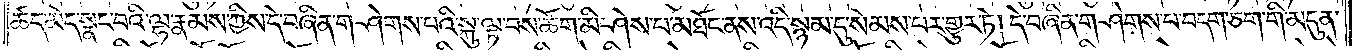ཚད་མེད་སྣང་བའི་ལྷ་རྣམས་ཀྱིས་དེ་བཞིན་གཤེགས་པའི་སྐུ་ལྟ་བས་ཆོག་མི་ཤེས་པ་མཐོང་ནས་འདི་སྙམ་དུ་སེམས་པར་གྱུར་ཏེ། དེ་བཞིན་གཤེགས་པ་བདག་ཅག་གི་མདུན་
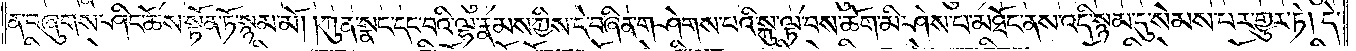ན་བཞུགས་ཤིང་ཆོས་སྟོན་ཏོ་སྙམ་མོ། །ཀུན་སྣང་དང་བའི་ལྷ་རྣམས་ཀྱིས་དེ་བཞིན་གཤེགས་པའི་སྐུ་ལྟ་བས་ཆོག་མི་ཤེས་པ་མཐོང་ནས་འདི་སྙམ་དུ་སེམས་པར་གྱུར་ཏེ། དེ་
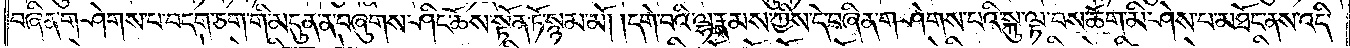བཞིན་གཤེགས་པ་བདག་ཅག་གི་མདུན་ན་བཞུགས་ཤིང་ཆོས་སྟོན་ཏོ་སྙམ་མོ། །དགེ་བའི་ལྷ་རྣམས་ཀྱིས་དེ་བཞིན་གཤེགས་པའི་སྐུ་ལྟ་བས་ཆོག་མི་ཤེས་པ་མཐོང་ནས་འདི་
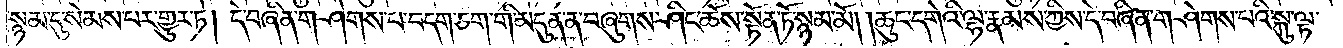སྙམ་དུ་སེམས་པར་གྱུར་ཏེ། དེ་བཞིན་གཤེགས་པ་བདག་ཅག་གི་མདུན་ན་བཞུགས་ཤིང་ཆོས་སྟོན་ཏོ་སྙམ་མོ། །ཆུང་དགེའི་ལྷ་རྣམས་ཀྱིས་དེ་བཞིན་གཤེགས་པའི་སྐུ་ལྟ་
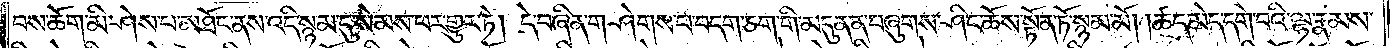བས་ཆོག་མི་ཤེས་པ་མཐོང་ནས་འདི་སྙམ་དུ་སེམས་པར་གྱུར་ཏེ། དེ་བཞིན་གཤེགས་པ་བདག་ཅག་གི་མདུན་ན་བཞུགས་ཤིང་ཆོས་སྟོན་ཏོ་སྙམ་མོ། །ཚད་མེད་དགེ་བའི་ལྷ་རྣམས་
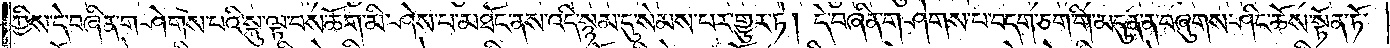ཀྱིས་དེ་བཞིན་གཤེགས་པའི་སྐུ་ལྟ་བས་ཆོག་མི་ཤེས་པ་མཐོང་ནས་འདི་སྙམ་དུ་སེམས་པར་གྱུར་ཏེ། དེ་བཞིན་གཤེགས་པ་བདག་ཅག་གི་མདུན་ན་བཞུགས་ཤིང་ཆོས་སྟོན་ཏོ་
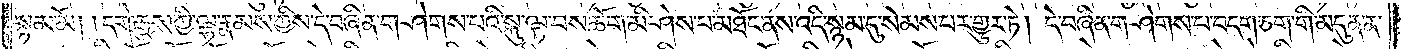སྙམ་མོ། །དགེ་རྒྱས་ཀྱི་ལྷ་རྣམས་ཀྱིས་དེ་བཞིན་གཤེགས་པའི་སྐུ་ལྟ་བས་ཆོག་མི་ཤེས་པ་མཐོང་ནས་འདི་སྙམ་དུ་སེམས་པར་གྱུར་ཏེ། དེ་བཞིན་གཤེགས་པ་བདག་ཅག་གི་མདུན་ན་
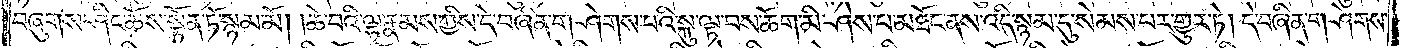བཞུགས་ཤིང་ཆོས་སྟོན་ཏོ་སྙམ་མོ། །ཆེ་བའི་ལྷ་རྣམས་ཀྱིས་དེ་བཞིན་གཤེགས་པའི་སྐུ་ལྟ་བས་ཆོག་མི་ཤེས་པ་མཐོང་ནས་འདི་སྙམ་དུ་སེམས་པར་གྱུར་ཏེ། དེ་བཞིན་གཤེགས་
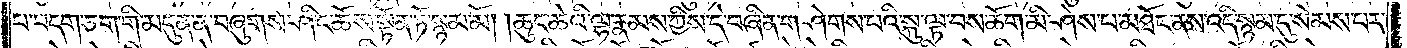པ་བདག་ཅག་གི་མདུན་ན་བཞུགས་ཤིང་ཆོས་སྟོན་ཏོ་སྙམ་མོ། །ཆུང་ཆེའི་ལྷ་རྣམས་ཀྱིས་དེ་བཞིན་གཤེགས་པའི་སྐུ་ལྟ་བས་ཆོག་མི་ཤེས་པ་མཐོང་ནས་འདི་སྙམ་དུ་སེམས་པར་
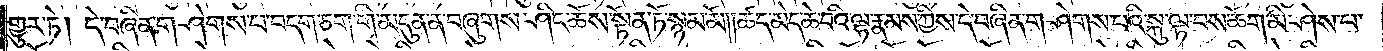གྱུར་ཏེ། དེ་བཞིན་གཤེགས་པ་བདག་ཅག་གི་མདུན་ན་བཞུགས་ཤིང་ཆོས་སྟོན་ཏོ་སྙམ་མོ། །ཚད་མེད་ཆེ་བའི་ལྷ་རྣམས་ཀྱིས་དེ་བཞིན་གཤེགས་པའི་སྐུ་ལྟ་བས་ཆོག་མི་ཤེས་པ་
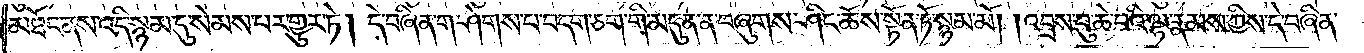མཐོང་ནས་འདི་སྙམ་དུ་སེམས་པར་གྱུར་ཏེ། དེ་བཞིན་གཤེགས་པ་བདག་ཅག་གི་མདུན་ན་བཞུགས་ཤིང་ཆོས་སྟོན་ཏོ་སྙམ་མོ། །འབྲས་བུ་ཆེ་བའི་ལྷ་རྣམས་ཀྱིས་དེ་བཞིན་
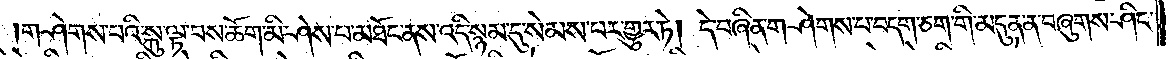གཤེགས་པའི་སྐུ་ལྟ་བས་ཆོག་མི་ཤེས་པ་མཐོང་ནས་འདི་སྙམ་དུ་སེམས་པར་གྱུར་ཏེ། དེ་བཞིན་གཤེགས་པ་བདག་ཅག་གི་མདུན་ན་བཞུགས་ཤིང་
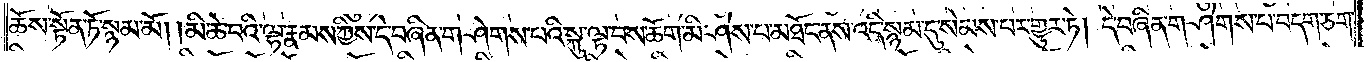ཆོས་སྟོན་ཏོ་སྙམ་མོ། །མི་ཆེ་བའི་ལྷ་རྣམས་ཀྱིས་དེ་བཞིན་གཤེགས་པའི་སྐུ་ལྟ་བས་ཆོག་མི་ཤེས་པ་མཐོང་ནས་འདི་སྙམ་དུ་སེམས་པར་གྱུར་ཏེ། དེ་བཞིན་གཤེགས་པ་བདག་ཅག་
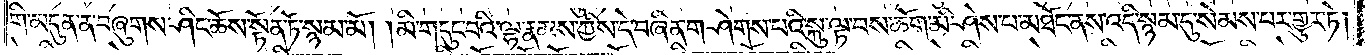གི་མདུན་ན་བཞུགས་ཤིང་ཆོས་སྟོན་ཏོ་སྙམ་མོ། །མི་གདུང་བའི་ལྷ་རྣམས་ཀྱིས་དེ་བཞིན་གཤེགས་པའི་སྐུ་ལྟ་བས་ཆོག་མི་ཤེས་པ་མཐོང་ནས་འདི་སྙམ་དུ་སེམས་པར་གྱུར་ཏེ།
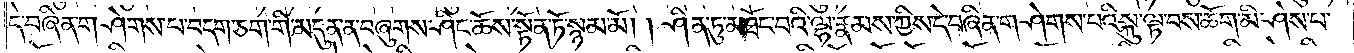དེ་བཞིན་གཤེགས་པ་བདག་ཅག་གི་མདུན་ན་བཞུགས་ཤིང་ཆོས་སྟོན་ཏོ་སྙམ་མོ། །ཤིན་ཏུ་མཐོང་བའི་ལྷ་རྣམས་ཀྱིས་དེ་བཞིན་གཤེགས་པའི་སྐུ་ལྟ་བས་ཆོག་མི་ཤེས་པ་
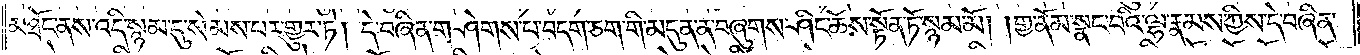མཐོང་ནས་འདི་སྙམ་དུ་སེམས་པར་གྱུར་ཏེ། དེ་བཞིན་གཤེགས་པ་བདག་ཅག་གི་མདུན་ན་བཞུགས་ཤིང་ཆོས་སྟོན་ཏོ་སྙམ་མོ། །གྱ་ནོམ་སྣང་བའི་ལྷ་རྣམས་ཀྱིས་དེ་བཞིན་
